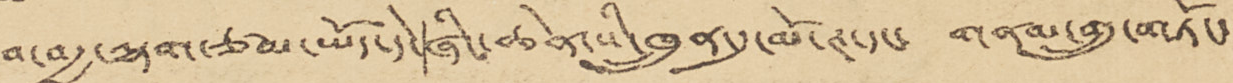བ་བརྒྱ་ལྷག་ཙམ་ཡོད་དེ་ཞིང་ཆེན་སི་ཁྲུན་དུ་མོ་ཊ་དང་ གནམ་གྲུ་གཏོང་
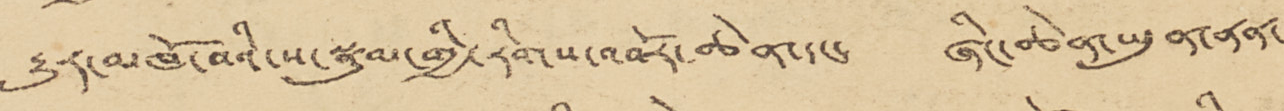རྒྱུར་མཁོ་བའི་ས་སྣུམ་གྱི་རིགས་འབོར་ཆེན་དང་ ཞིང་ཆེན་ཡུན་ནན་
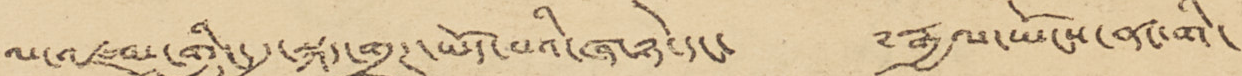ལ་འཛམ་གླིང་དུ་སྐད་གྲཊ་ཡོད་པའི་ཞ་ཉེ་དང་ ༸རྒྱལ་ཡོངས་ནང་གི་
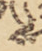ས
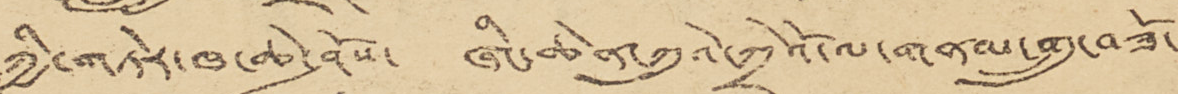ཀྱི་གཏེར་ཁ་ཆེ་ཤོས་ ཞིང་ཆེན་ཀུའེ་ཀྲེའོ་ལ་གནམ་གྲུ་བཟོ་
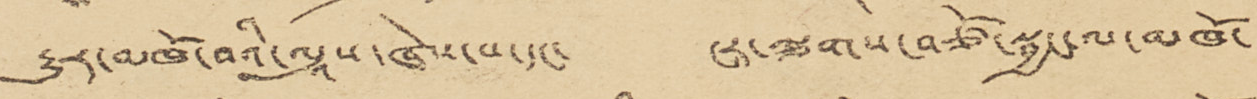རྒྱུར་མཁོ་བའི་ལུསཱ་ཞེས་པ་དང་ ངར་ལྕགས་བཙོ་སྦྱང་ལ་མཁོ་
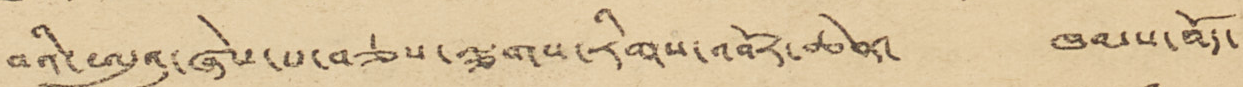བའི་ཨུའུ་ཞེས་བ་བཅས་ལྕགས་རིགས་འབོར་ཆེན་ ཁམས་བོད་
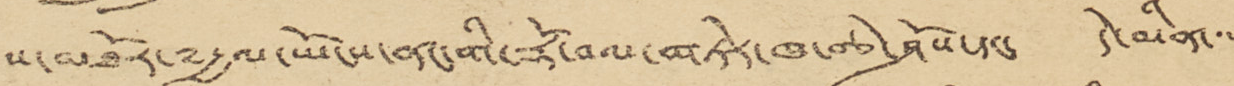ས་མཐོར་༸རྒྱལ་ཡོངས་ནང་གི་རྡོ་བལ་གཏེར་ཁ་ཆེ་ཤོས་དང་ དེ་མིན་་་
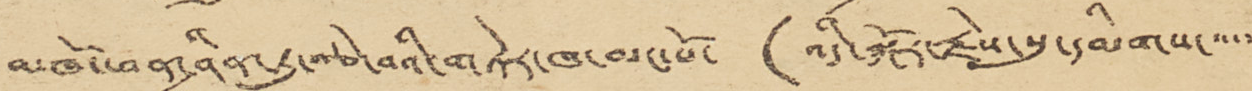མཁོ་ཕན་ཤིན་ཏུ་ཆེ་བའི་གཏེར་ཁ་མང་པོ་ (འདི་སྐོར་རྗེས་སུ་དམིགས་་་་་
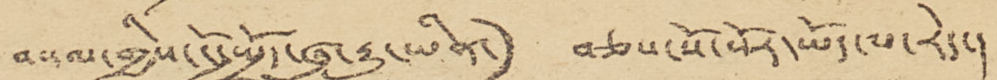བསལ་གྱིས་ངོ་སྤྲོད་ཞུ་རྒྱུ་ཡིན་་་) བཅས་སོ་སོར་ཡོད་པ་རེད་།
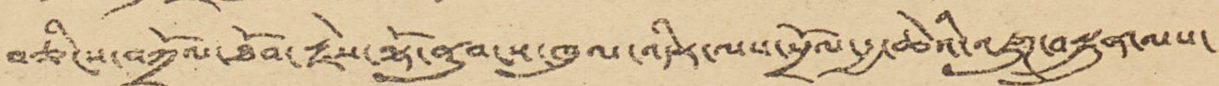བཅིངས་བཀྲོལ་ཐོབ་རྗེས་ལྷོ་ནུབ་ས་ཁུལ་འདིར་ལས་སྲོལ་རྒྱ་ཆེའི་འཛུཊ་བསྐྲུན་ལས་
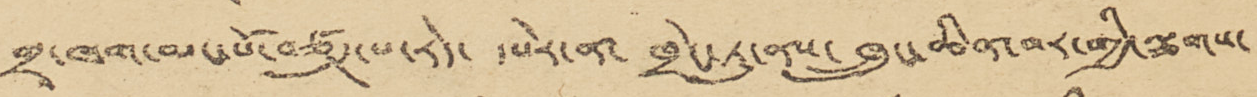གྲྭ་ཁག་མང་པོ་བཙུཊ་པ་རེད་ དཔེར་ན་ ཁྲེང་ཏུ་ནས་ ཁྲུང་ཆིན་བར་གྱི་ལྕགས་
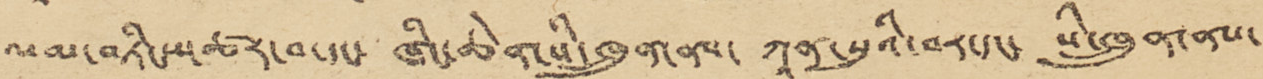ལམ་གཏིངས་ཚར་བ་དང་ ཞིང་ཆེན་སི་ཁྲུན་ནས་ ཀཱན་སུའི་བར་དང་ སི་ཁྲུན་ནས་
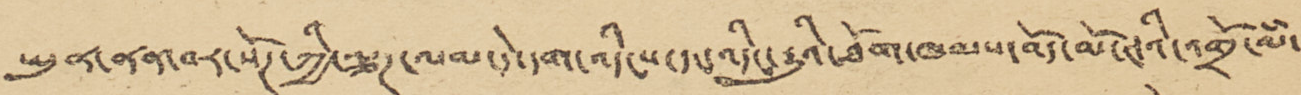ཡུན་ནན་བར་སོཊ་ཀྱི་ལྕཊ་ལམ་དེ་དག་འདིངས་དང་འདིང་རྒྱུའི་ཐོག་ཁམས་བོད་མོ་ཊའི་འགྲོ་ལཾ་
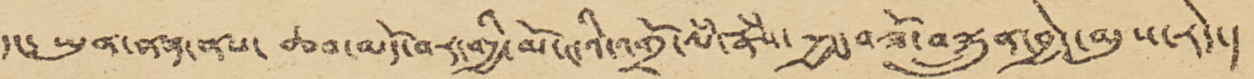དང་ ཡུན་ནན་ནས་ ཆབ་མདོ་བར་གྱི་མོ་ཊའི་འགྲོ་ལཾ་རྣཾས་་རྒྱང་བཟོ་བསྐྲུན་བྱེད་མུས་རེད་།
